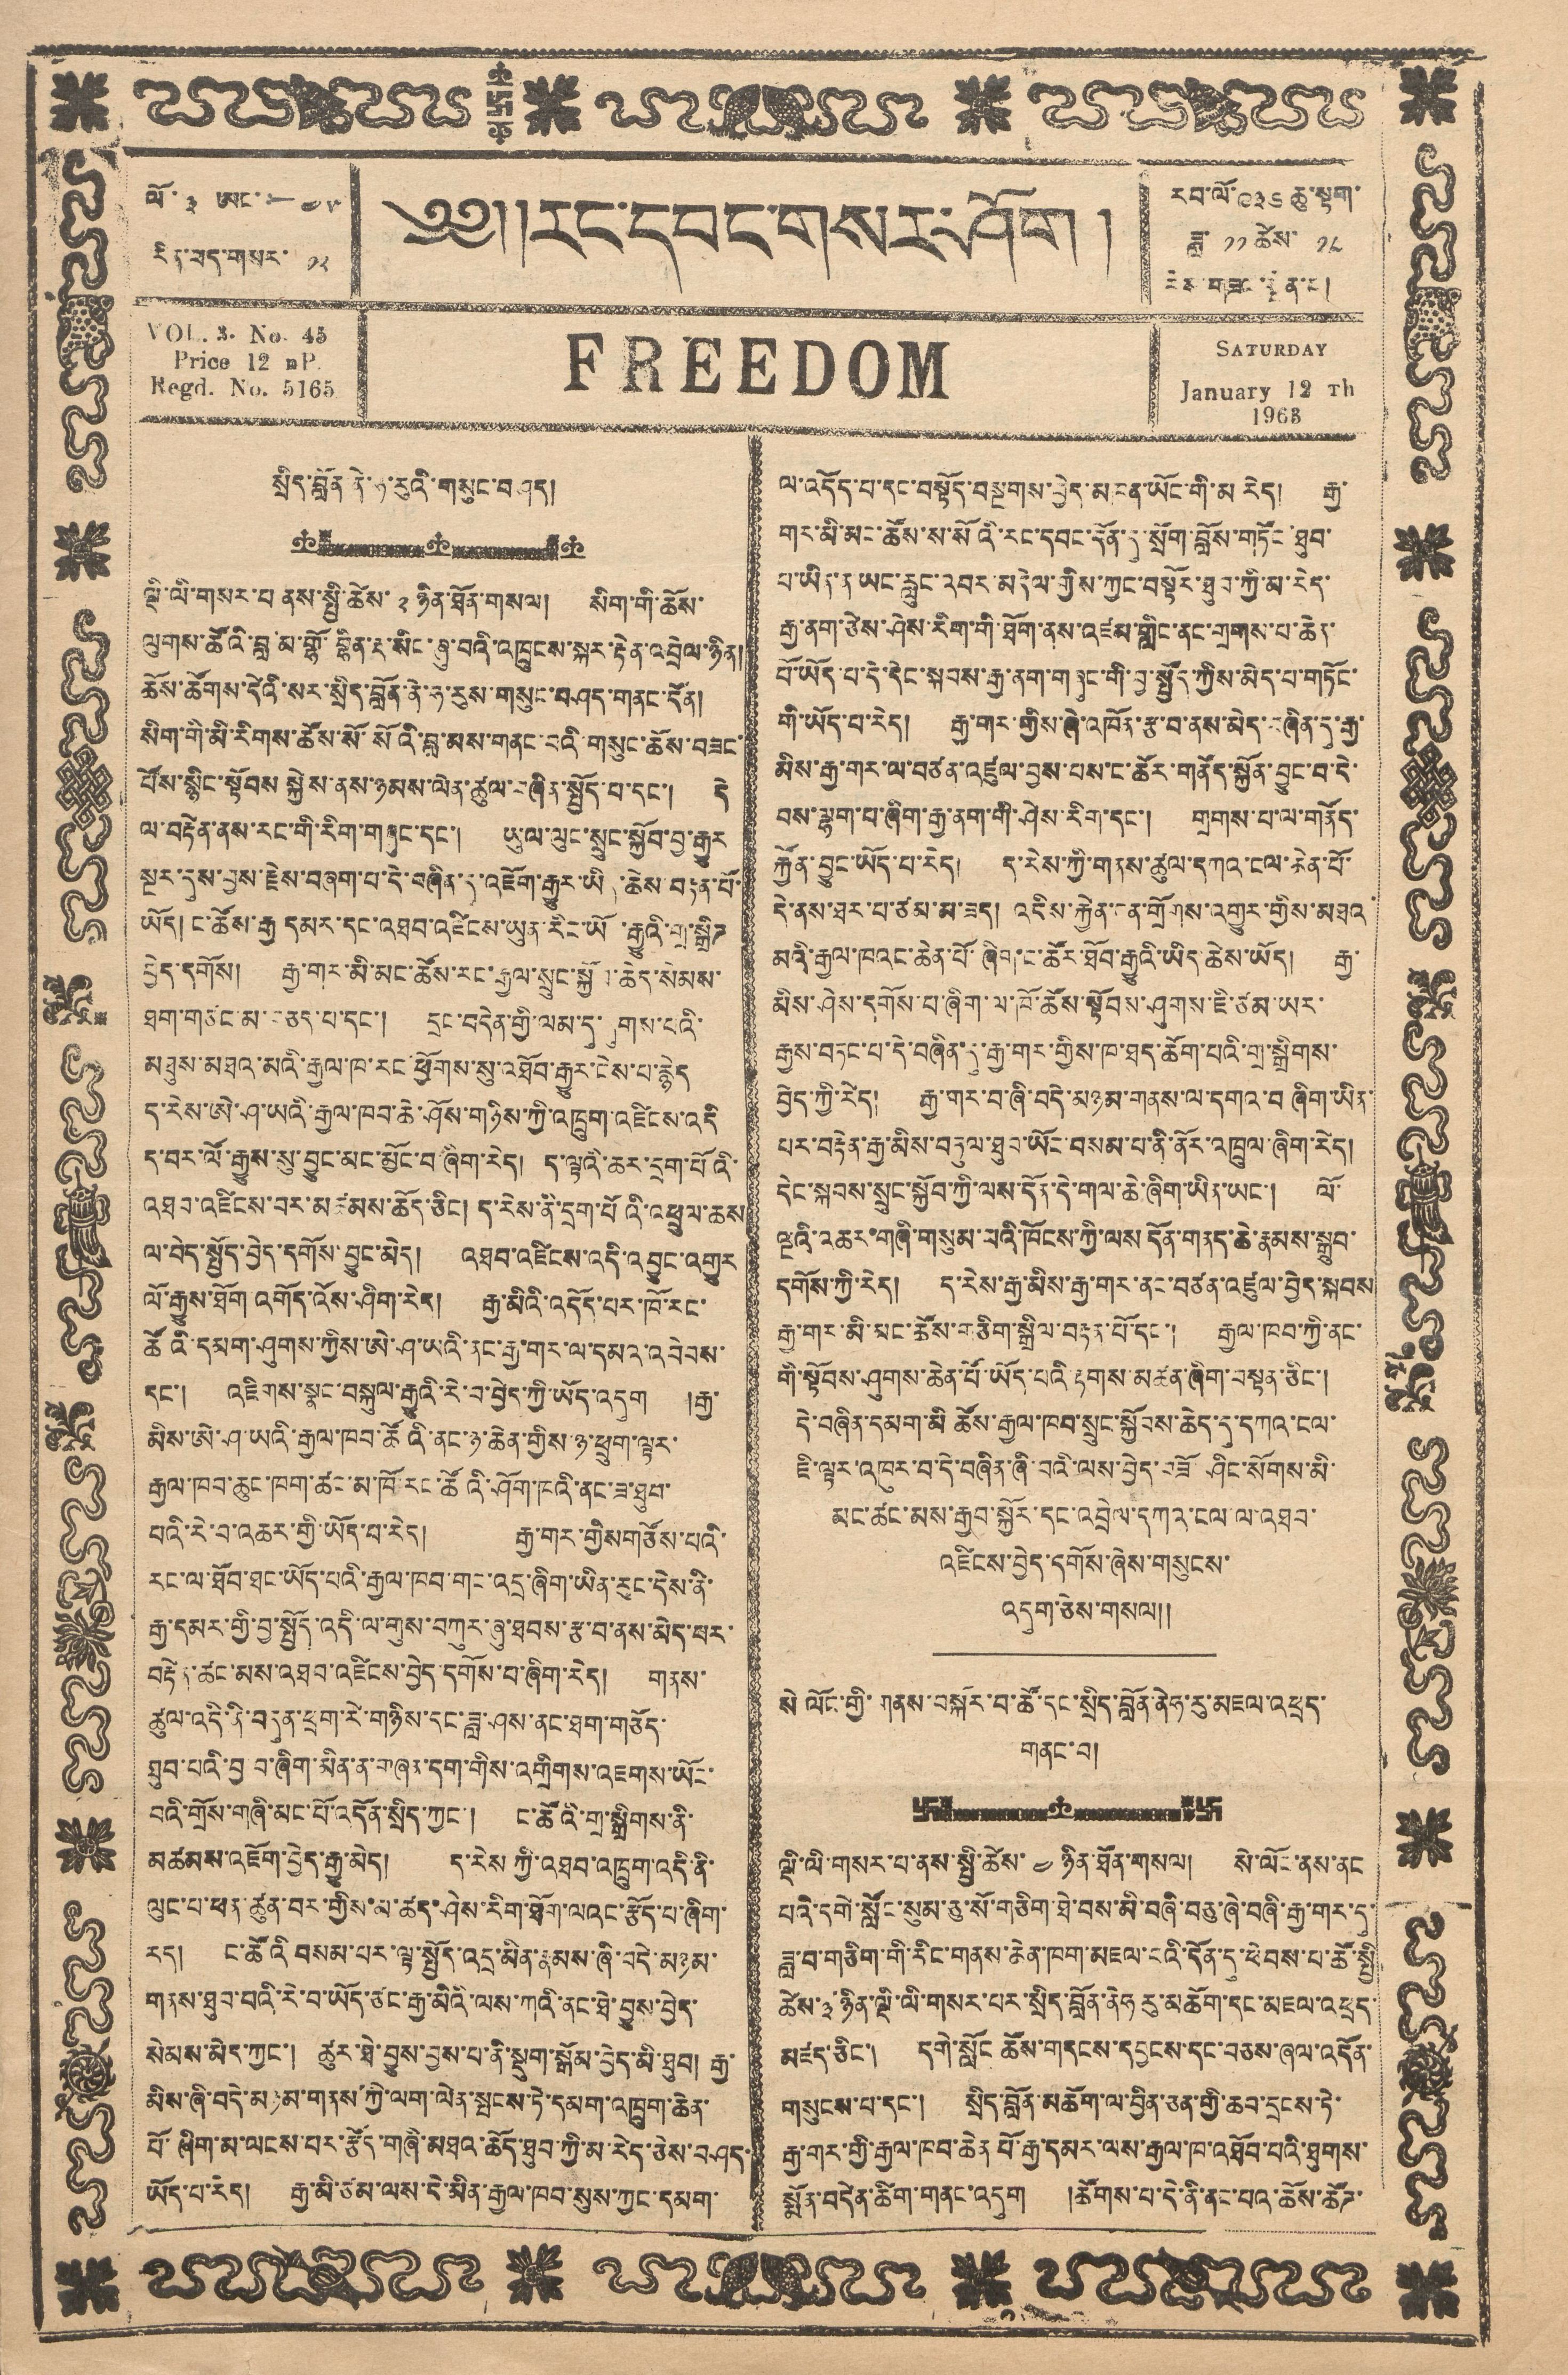༄༅།། རང་དབང་གསར་ཤོག །
FREEDOM
ལོ་ ༣ ཨང་:— ༤༥
རིན་ཕད་གསར་ ༡༢
VOL. 3. No. 45
Price 12 nP
Regd. No. 5165
རབ་ལོ་ ༩༣༦ ཆུ་སྟག་
ཟླ་ ༡༡ ཚེས་ ༡༨
རེས་གཟའ་སྤེན་པ།
SATURDAY
January 12 th
1963
སྲིད་བློན ནེ་ཧ་རུའི་གསུང་བཤད།
ལྡི་ལི་གསར་བ ནས་སྤྱི་ཚེས་ ༢ ཉིན་ཐོན་གསལ། སིག་གི་ཆོས་
ལུགས་ཚོའི་བླ་མའི་གྷོ་བྷིན་རྡ་སིང་ཞུ་བའི་འཁྲུངས་སྐར་རྟེན་འབྲེལ་ཉིན།
ཆོས་ཚོགས་དེའི་སར་སྲིད་བློན་ནེ་ཧ་རུས་གསུང་བཤད་གནང་དོན།
སིག་གི་མི་རིགས་ཚོས་སོ་སོའི་བླ་མས་གནང་བའི་གསུང་ཆོས་བཟང་
པོས་སྙིང་སྟོབས སྐྱེས་ནས་ཉམས་ལེན་ཚུལ་བཞིན་སྤྱོད་པ་དང་། དེ
ལ་བརྟེན་ནས་རང་གི་རིག་གཞུང་དང་། ཡུལ་ལུང་སྲུང་སྐྱོབ་བྱ་རྒྱུར
སྔར་དུས་བྱས་རྗེས་བཞག་པ་དེ་བཞིན་དུ་འཇོག་རྒྱུར་ཡིད་ཆེས་བརྟན་པོ་
ཡོད། ང་ཚོས་རྒྱ དམར་དང་འཐབ་འཛིངས་ཡུན་རིང་ཡོ ་རྒྱུའི་གྲ་སྒྲིཊ
བྱེད་དགོས། རྒྱ་གར་མི་མང་ཚོས་རང་རྒྱལ་སྲུང་སྐྱོབ་ཆེད་སེམས་
ཐག་གཙང་མ་བཅད་པ་དང་། དྲན་བདེན་གྱི་ལམ་དུ་ཞུགས་པའི་
མཐུས་མཐའ་མའི་རྒྱལ་ཁ་རང་ཕྱོགས་སུ་འཐོབ་རྒྱུར་ངེས་པ་རྙེད
ད་རེས་ཨེ་ཤ་ཡའི་རྒྱལ་ཁབ་ཆེ་ཤོས་གཉིས་ཀྱི་འཁྲུག་འཛིངས་འདི
ད་བར་ལོ་རྒྱུས་སུ་བྱུང་མང་མྱོང་བ་ཞིག་རེད། ད་ལྟའི་ཆར་དྲག་པོའི་
འཐབ་འཛིངས་བར་མཚམས་ཆོད་ཅིང། ད་རེས་ནི་དྲག་པོའི་འཕྲུལ་ཆས
ལ་བདེ་སྤྱོད་བྱེད་དགོས་བྱུང་མེད། འཐབ་འཛིངས་འདི་འབྱུང་འགྱུར
ལོ་རྒྱུས་ཐོག འགོད་འོས་ཤིག་རེད། རྒྱ་མིའི་འདོད་པར་ཁོ་རང་
ཚོའི་དམག་ཤུགས་ཀྱིས་ཨེ་ཤ་ཡའི་ནང་རྒྱ་གར་ལ་དམའ་འབེབས་
དང་། འཇིགས་སྣང་བསྐུལ་རྒྱུའི་རེ་བ་བྱེད་ཀྱི་ཡོད་འདུག །རྒྱ་
མིས་ཨེ་ཤ་ཡའི་རྒྱལ་ཁབ་ཚོའི་ནང་ཉ་ཆེན་གྱིས་ཉ་ཕྲུག་ལྟར་
རྒྱལ་ཁབ་ཆུང་ཁག་ཚང་མ་ཁོ་རང་ཚོའི་ཤོག་ཁའི་ནང་ཟ་ཐུས་
པའི་རེ་བ་འཆར་གྱི་ཡོད་པ་རེད། རྒྱ་གར་གྱིས་གཙོས་པའི་
རང་ལ་ཐོབ་ཐང་ཡོད་པའི་རྒྱལ་ཁབ་གང་འདྲ་ཞིག་ཡིན་རུང་དེས་ནི་
རྒྱ་དམར་ཀྱི་བྱ་སྤྱོད་འདི་ལ་གུས་བཀུར་ཞུ་ཐབས་རྩ་བ་ནས་མེད་པར་
བརྟེན་ཚང་མས་འཐབ་འཛིངས་བྱེད་དགོས་པ་ཞིག་རེད། གནས་
ཚུལ་འདི་ནི་བདུན་ཕྲག་རེ་གཉིས་དང་ཟླ་ཤས་ནང་ཐག་གཅོད་
ཐུབ་པའི་བྱ་བ་ཞིག་མིན་ན་གཞན་དག་གིས་འགྲིགས་འཇགས་ཡོང་
བའི་གྲོས་གཞི་མང་པོ་འདོན་སྲིད་ཀྱང་། ང་ཚོའི་གྲ་སྒྲིགས་ནི་
མཚམས་འཇོག་བྱེད་རྒྱུ་མེད། ད་རེས ཀྱི་འཐབ་འཁྲུག་འདི་ནི་
ལུང་པ་ཕན་ཚུན་བར་གྱིས་མ་ཚད་ཤེས་རིག་ཐོག་ལའང་རྩོད་པ་ཞིག་
རེད། ང་ཚོའི བསམ་པར་ལྟ་སྤྱོད་འདྲ་མིན་རྣམས་ཞི་བདེ་མཉམ་
གནས་ཐུབ་པའི་རེ་བ་ཡོད་ཙང་རྒྱ་མིའི་ལས་ཀའི་ནང་ཐེ་བྱུས་བྱེད་
སེམས་མེད་ཀྱང་། ཚུར་ཐེ་བྱུས་བྱས་པ་ནི་སྡུག་སྒོམ་བྱེད་མི་ཐུབ། རྒྱ་
མིས་ཞི་བདེ་མཉམ་གནས་ཀྱི་ལག་ལེན་སྤངས་ཏེ་དམག་འཁྲུག་ཆེན་
པོ་ཞིག་མ་ལངས་པར་རྩོད་གཞི་མཐའ་ཆོད་ཐུབ་ཀྱི་མ་རེད་ཅེས་བཤད་
ཡོད་པ་རེད། རྒྱ་མི་ཙམ་ལས་དེ་མིན་རྒྱལ་ཁབ་སུས་ཀྱང་དམག་
ལ་འདོད་པ་དང་བསྟོད་བསྔགས་ཕྱེད་མཁན་ཡོང་གི་མ་རེད། རྒྱ་
གར་མི་མང་ཚོས་ས་སོའི་རང་དབང་དོན་དུ་སྲོག་བློས་གཏོང་ཐུབ་
པ་ཡིན་ན་ཡང་རླུང་འབར་མདེལ་གྱིས་ཀྱང་བསྟོར་ཐུབ་ཀྱི་མ་རེད་
རྒྱ་ནག་ཅེས་ཤེས་རིག་གི་ཐོག་ནས་འཛམ་གླིང་ནང་གྲགས་པ་ཆེན་
པོ་ཡོད་པ་དེ་དེང་སྐབས་རྒྱ་གར་གཞུང་གི་བྱ་སྤྱོད་ཀྱིས་མེད་པ་གཏོང་
གི་ཡོད་པ་རེད། རྒྱ་གར་གྱིས་ཞེ་འཁོན་རྩ་བ་ནས་མེད་བཞིན་དུ་རྒྱ་
མིས་རྒྱ་གར་ལ་བཙན་འཛུལ་བྱས་པས་ང་ཚོར་གནོད་སྐྱོན་བྱུང་བ་དེ་
པས་ལྷག་པ་ཞིག་རྒྱ་ནག་གི་ཤེས་རིག་དང་། གྲགས་པ་ལ་གནོད་
རྐྱོན་བྱུང་ཡོད་པ་རེད། ད་རེས་ཀྱིས་གནས་ཚུལ་དཀའ་ངལ་ཆེན་པོ་
དེ་ནས་ཐར་པ་ཙམ་མ་ཟད། འདིས་རྐྱེན་ངན་གྲོགས་འགྱུར་གྱིས་མཐའ་
མའི་རྒྱལ་ཁའང་ཆེན་པོ་ཞིག་ང་ཚོར་ཐོབ་རྒྱུའི་ཡིད་ཆེས་ཡོད། རྒྱ་
མིས་ཤེས་དགོས་པ་ཞིག་ལ་ཁོ་ཚོས་སྟོབས་ཤུགས་ཇི་ཙམ་ཡར་
རྒྱས་བཏང་པ་དེ་བཞིན་དུ་རྒྱ་གར་གྱིས་ཁ་ཐད་ཆོག་པའི་གྲ་སྒྲིགས་
བྱེད་ཀྱི་རེད། རྒྱ་གར་བ་ཞི་བདེ་མཉམ་གནས་ལ་དགའ་བཞིག་ཡིན་
པར་བརྟེན་རྒྱ་མིས་བཏུས་ཐུབ་ཡོང་བསམ་པ་ནི་ནོར་འཁྲུལ་ཞིག་རེད།
དེང་སྐབས་སྲུང་སྐྱོབ་ཀྱི་ལས་དོན་དེ་གལ་ཆེ་ཞིག་ཡིན་ཡང་། ལོ་
ལྔའི་འཆར་གཞི་གསུམ་པའི་ཁོངས་ཀྱི་ལས དོན་གནད་ཆེ་རྣམས་སྒྲུབ་
དགོས་ཀྱི་རེད། ད་རེས་རྒྱ་མིས་རྒྱ་གར་ནང་བཙན་འཛུལ་བྱེད་སྐབས
རྒྱ་གར་མི་མང་ཚོས་གཅིག་སྒྲིལ་བརྟན་པོ་དང་། རྒྱལ་ཁབ་ཀྱི་ནང་
གི་སྟོབས་ཤུགས་ཆེན་པོ་ཡོད་པའི་རྟགས་མཚན་ཞིག་བསྟན་ཅིང་།
དེ་བཞིན་དམག་མི ཚོས་རྒྱལ་ཁབ་སྲུང་སྐྱོབས་ཆེད་དུ་དཀའ་ངལ་
ཇི་ལྟར་འཁུར་བ་དེ་བཞིན་ཞི་བའི་ལས་བྱེད་བཟོ་ཤིང་སོགས་མི་
མང་ཚང་མས་རྒྱབ་སྐྱོར་དང་འབྲེལ་དཀའ་ངལ་ལ་འཐབ་
འཛིངས་བྱེད་དགོས་ཞེས་གསུངས་
འདུག་ཅེས་གསལ།།
སེ ལོང་གྱི་གནས་བསྐོར་བ་ཚོ་དང་སྲིད་བློན་ནེཧ་རུ་མཇའ་འཕྲད་
གནང་བ།
ལྡི་ལི་གསར་པ་ནས་སྤྱི་ཚེས་ ༤ ཉིན་ཐོན་གསལ། སེ་ལོང་ནས་ནང
པའི་དགེ་སློང་སུམ་ཅུ་སོ་གཅིག་ཐེ་བས་མི་བཞི་བཅུ་ཞེ་བཞི་རྒྱ་གར་དུ་
ཟླ་བ་གཅིག་གི་རིང་གནས་ཆེན་ཁག་མཇལ་ངའི་དོན་དུ་ཕེབས་པ་ཚོ་སྤྱི
ཚེས་ ༣ ཉིན་ལྡི་ལི་གསར་པར་སྲིད་བློན་ནེཧརུ་མཆོག་དང་མཇལ་འཕྲད་
མཛད་ཅིང་། དགེ་སློང ཆོས་གདངས་དབྱངས་དང་བཅས་ཞལ་འདོན་
གསུངས་པ་དང་། སྲིད་བློན་མཆོག་ལ་བྱིན་ཅན་གྱི་ཆབ་དྲངས་ཏེ་
རྒྱ་གར་གྱི་རྒྱལ་ཁབ་ཆེན་པོ་རྒྱ་དམར་ལས་རྒྱལ་ཁབ་འཐོབ་པའི་ཐུགས་
སྨོན་བདེན་ཚོག་གནང་འདུག །ཚོགས་པ་དེ་ནི་ནང་པའི་ཆོས་ཚོཊ་
